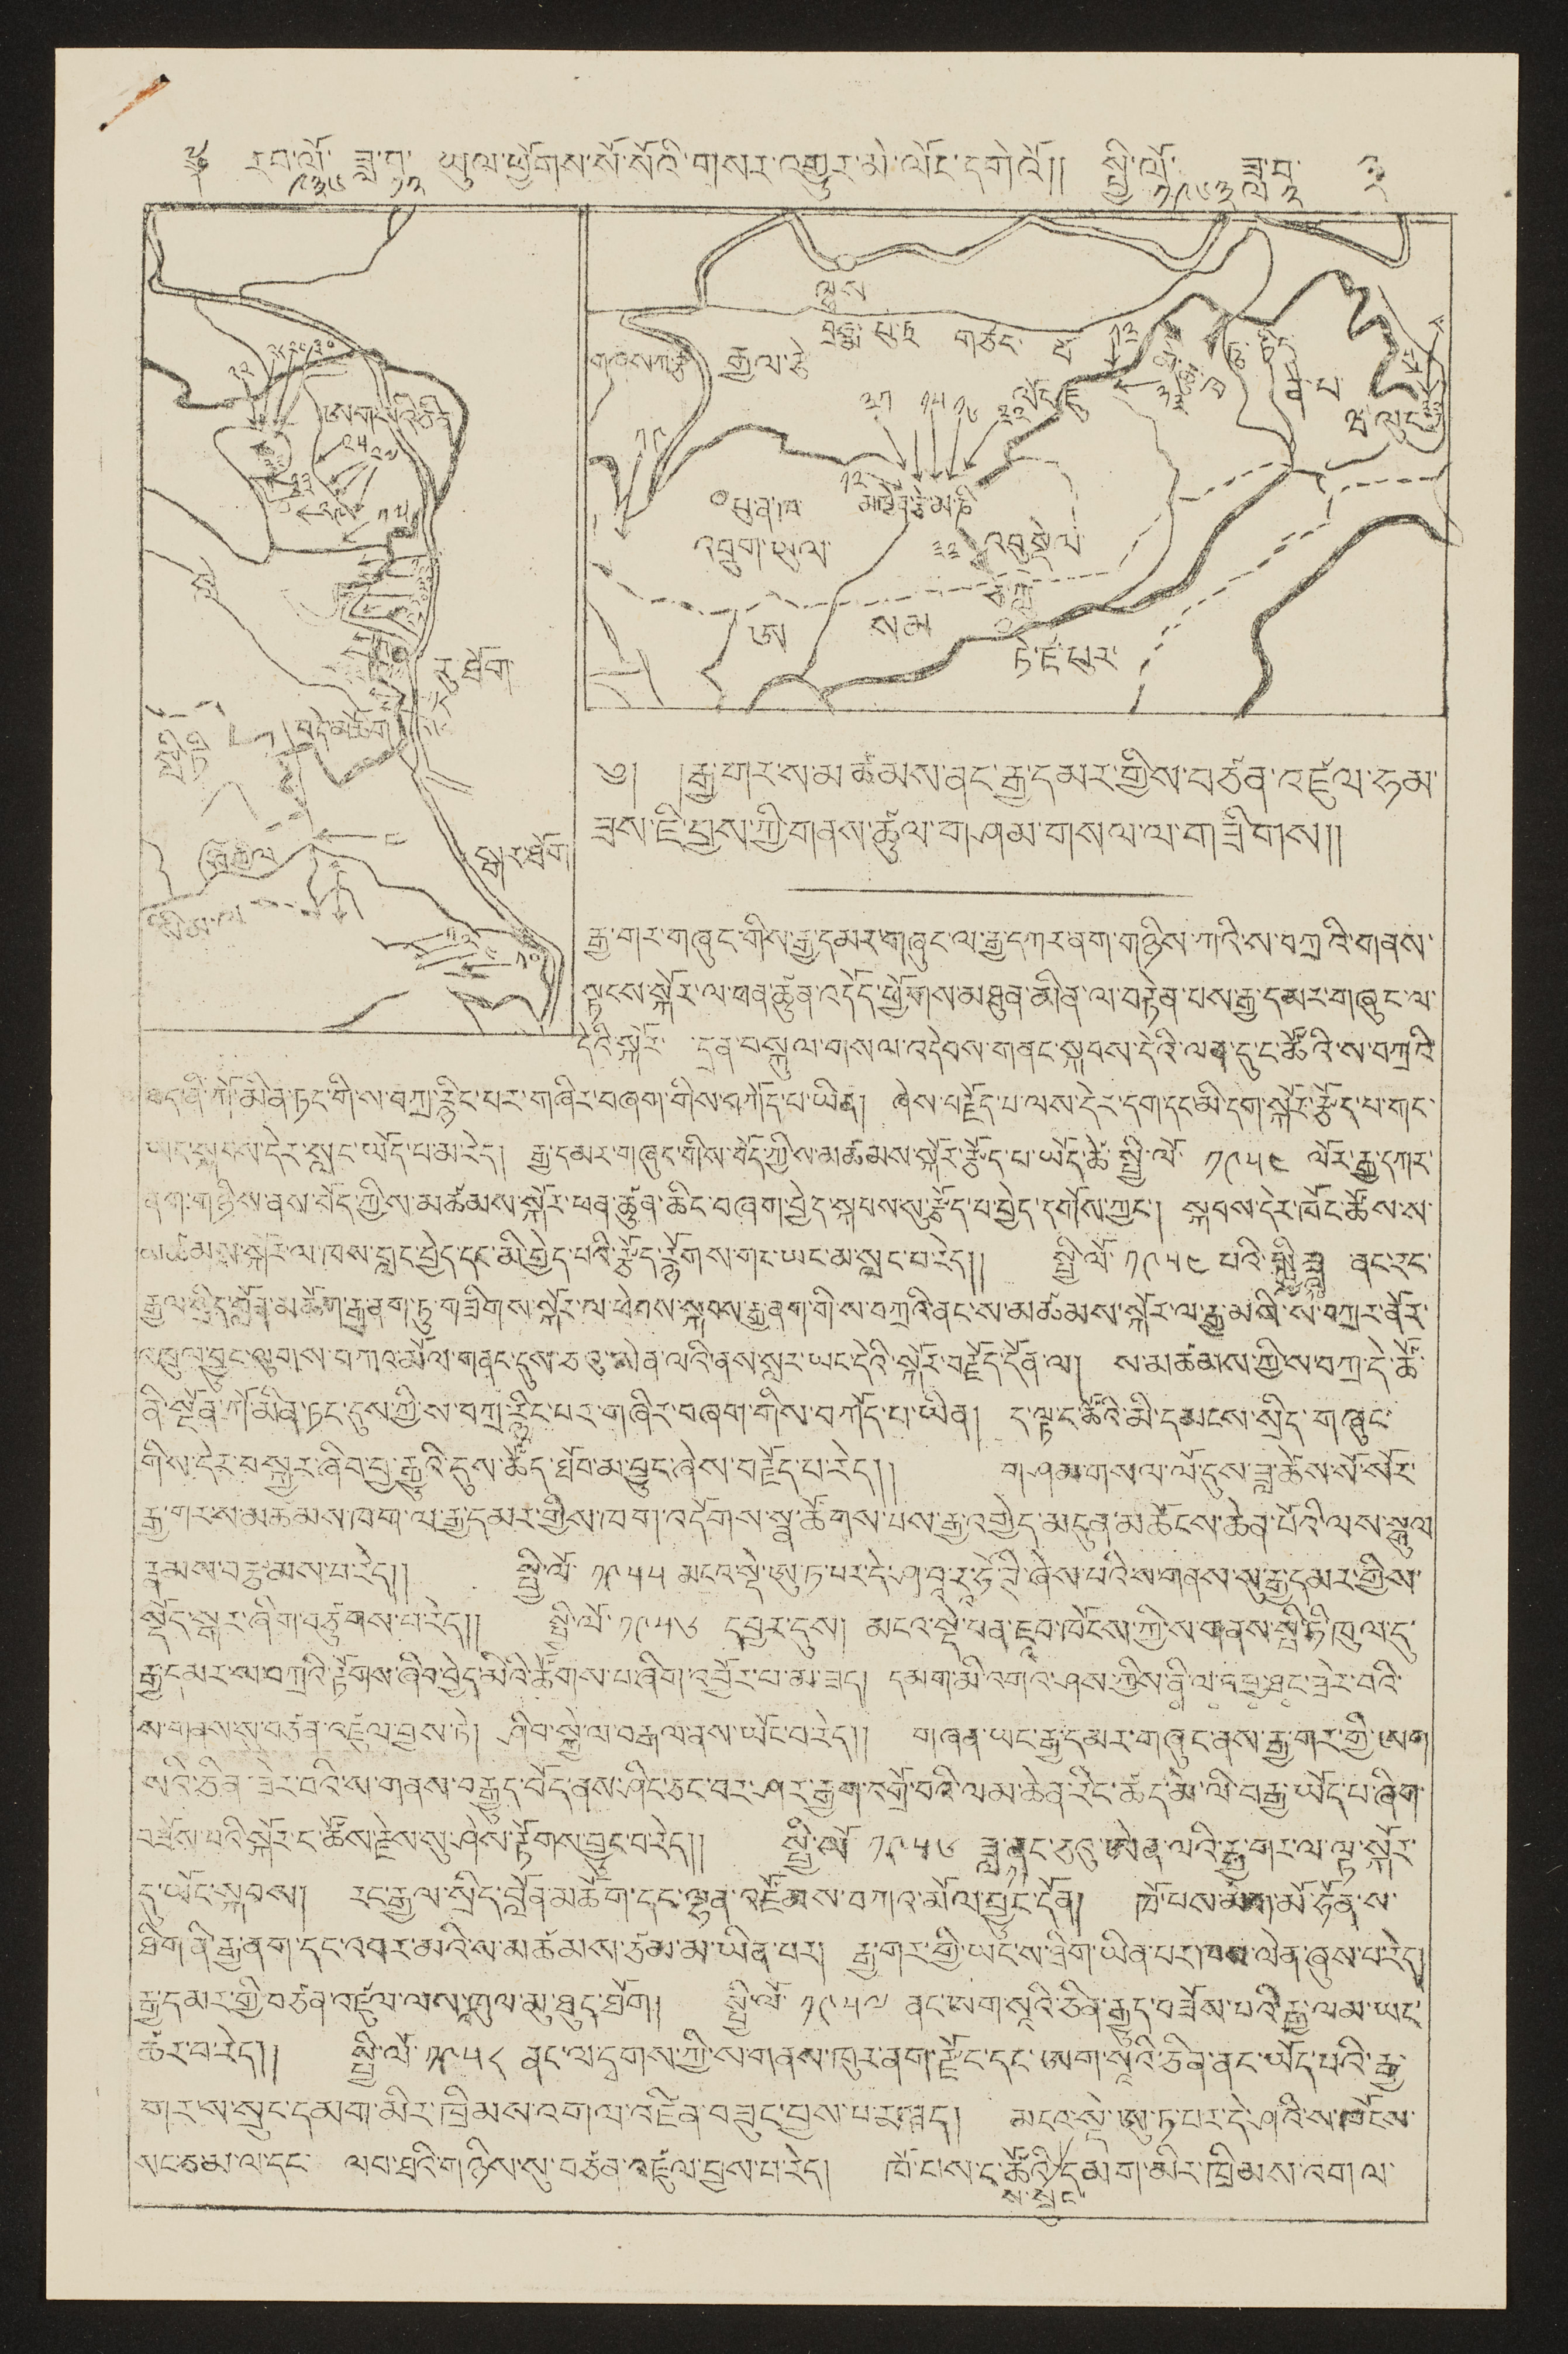༈ རབ་ལོ་
༩༣༦
ཟླ་བ་
༡༢
ཡུལ་ཕྱོགས་སོ་སོའི་གསར་འགྱུར་མེ་ལོང་དགེའོ།། སྤྱི་ལོ་
༡༩༦༣
ཟླ་བ་
༢
༣
༣༠
༢༠
༢༨
༢༢
ཨག་སའི་ཅིན་
༢༥
༢༧
༢༣
༣༣
༢༩
༡༥
༡
༣
སླེ
༣༠
༢༡
རུ་ཐོག་
༡༨
༢༦
བདེ་མཆོག་
སྤི་ཏི་
༤
སྒར་ཐོག་
ཤི་ཀྱིལ་
༢
སིམ་ལ་
༡
༢
༤
༡༠
ལྷ ས
༨
བྭཧྨ་པུ་ཏྲ གཙང་ པོ་
༡༢
ཏུ་ཏྲིར་
པུ་
མེ་ཆུ་ཁ་
གཞིས་ཀ་རྩེ་
རྒྱལ་རྩེ་
༢༣
ནཻ་པ་
ལོང་ཇུ་
༣༡
༡༥
༡༦
༣༣
༢༢
ཝ་ལུང་
༡༩
༡༢
པུ་ན་ཁ་
མཁྱེན་རྩེ་མ་ཎི་
འབྲུག་ཡུལ་
འབུ སྡེལ་
༣༣
ཅ་ཀླུ་
ཨ་ སམ་
ཏེ་ཛ་པུར་
༄། །རྒྱ་གར་ས་མཚམས་ནང་རྒྱ་དམར་གྱིས་བཙན་འཛུལ་ཧམ་
ཟས་ཇི་བྱས་ཀྱི་གནས་ཚུལ་གཤམ་གསལ་ལ་གཟིགས།།
རྒྱ་གར་གཞུང་གིས་རྒྱ་དམར་གཞུང་ལ་རྒྱ་དཀར་ནག་གཉིས་ཀའི་ས་བཀྲའི་གནས་
སྟངས་སྐོར་ལ་ཕན་ཚུན་འདོད་ཕྱོགས་མཐུན་མིན་ལ་བརྟེན་པས་རྒྱ་དམར་གཞུང་ལ་
དེའི་སྐོར་ ་དྲན་བསྐུལ་གསལ་འདེབས་གནང་སྐབས་དེའི་ལན་དུ་ང་ཚོའི་ས་བཀྲའི་
ཐད་ནི་ཀོ་མིན་ཏང་གི་ས་བཀྲ་རྙིང་པར་གཞིར་བཞག་གིས་བཀོད་པ་ཡིན། ཞེས་བརྗོད་པ་ལས་དེར་དག་དང་མི་དག་སྐོར་རྩོད་པ་གང་
ཡང་སྐབས་དེར་སླང་ཡོད་པ་མ་རེད། རྒྱ་དམར་གཞུང་གིས་བོད་ཀྱི་ས་མཚམས་སྐོར་རྩོད་པ་ཡོད་ཚེ་སྤྱི་ལོ་ ༡༩༥༤ ལོར་རྒྱ་དཀར་
ནག་གཉིས་ནས་བོད་ཀྱི་ས་མཚམས་སྐོར་ཕན་ཚུན་ཆིང་བཞག་བྱེད་སྐབས་སུ་རྩོད་པ་བྱེད་དགོས་ཀྱང་། སྐབས་དེར་ཁོང་ཚོས་ས་
མཚམས་སྐོར་ལ་ཁས་བླང་བྱེད་དང་མི་བྱེད་པའི་རྩོད་རྙོགས་གར་ཡང་མ་སླང་པ་རེད།། སྤྱི་ལོ་ ༡༩༥༤ པའི་སྤྱི་ཟླ་
༡༠
ནང་རང་
རྒྱལ་སྲིད་བློན་མཆོག་རྒྱ་ནག་ཏུ་གཟིགས་སྐོར་ལ་ཕེབས་སྐབས་རྒྱ་ནག་གི་ས་བཀྲའི་ནང་ས་མཚམས་སྐོར་ལ་རྒྱ་མསི་ས་བཀྲར་ནོར་
འཁྲུལ་བྱུང་ལུགས་བཀའ་མོལ་གནང་དུས་ཅའུ་ཨེན་ལའི་ནས་སླར་ཡང་དེའི་སྐོར་བརྗོད་དོན་ལ། ས་མཚམས་ཀྱིས་བཀྲ་དེ་ཚོ་
ནི་སྔོན་ཀོ་མིན་ཏང་དུས་ཀྱིས་བཀྲ་རྙིང་པར་གཞིར་བཞག་གིས་བཀོད་པ་ཡིན། ད་ལྟ་ང་ཚོའི་མི་དམངས་སྲིད་གཞུང་
གིས་དེར་བསྐྱར་ཞིབ་བྱ་རྒྱུའི་དུས་ཚོད་ཐོབ་མ་བྱུང་ཞེས་བརྗོད་པ་རེད།། གཤམ་གསལ་ལོ་དུས་ཟླ་ཚེས་སོ་སོར་
རྒྱ་གར་ས་མཚམས་ཁག་ལ་རྒྱ་དམར་གྱིས་ཁག་འདོགས་སྣ་ཚོགས་པས་རྒྱ་འགྱེད་མདུན་མཚོངས་ཆེན་པོའི་ལས་སྒུལ་
རྣམས་བརྩམས་པ་རེད།། སྤྱི་ལོ་ ༡༩༥༥ མངའ་སྡེ་ཨུ་ཏ་པར་དེ་ཤ་བཱ་རཱ་ཧོ་ཊི་ཞེས་པའི་ས་གནས་སུ་རྒྱ་དམར་གྱིས་
སྡོད་སྒར་ཞིག་བཙུགས་པ་རེད།། སྤྱི་ལོ་ ༡༩༥༦ དབྱར་དུས། དབྱར་དུས། མངའ་སྡེ་པན་ཇཱབ་ཁོངས་ཀྱི་ས་གནས་སྦི་ཏི་ཁུལ་དུ་
རྒྱ་དམར་ས་བཀྲའི་རྟོགས་ཞིབ་བྱེད་མིའི་ཚོགས་པ་ཞིག་འབྱོར་བ་མ་ཟད། དམག་མི་འགའ་ཤས་ཀྱིས་ནི་ལ་འབྱ་ཐང་ཟེར་བའི་
ས་གནས་སུ་བཙན་འཛུལ་བྱས་ཏེ། ཤིབ་སྐྱེ་ལ་བརྒལ་ནས་ཡོང་བ་རེད།། གཞན་ཡང་རྒྱ་དམར་གཞུང་ནས་རྒྱ་གར་གྱི་ཨག
སའི་ཅིན་ཟེར་བའི་ས་གནས་བརྒྱུད་བོད་ནས་ཤིང་ཅང་བར་ཤར་རྒྱག་འགྲོ་བའི་ལམ་ཆེན་རིང་ཚད་མེ་ལི་བརྒྱ་ཡོད་པ་ཞིག་
བཟོས་པའི་སྐོར་ང་ཚོས་རྗེས་སུ་ཤེས་རྟོགས་བྱུང་བ་རེད།། སྤྱི་ལོ་ ༡༩༤༦ ཟླ་
༡
ནང་ཅའི་ཨེན་ལའི་རྒྱ་གར་ལ་ལྟ་སྐོར་
དུ་ཡོང་སྐབས། རང་རྒྱལ་སྲིད་བློན་མཆོག་དང་ལྷན་འཛོམས་བཀའ་མོལ་བྱུང་དོན། ཁོ་པས་མེག་མོ་ཧོན་ས་
ཐིག་ནི་རྒྱ་ནག་དང་འབར་མའི་ས་མཚམས་ཙམ་མ་ཡིན་པར། རྒྱ་གར་གྱི་ཡངས་ཐིག་ཡིན་པར་ཁས་ལེན་ཞུས་པ་རེད།
རྒྱ་དམར་གྱི་བཙན་འཛུལ་ལས་འཁུལ་མུ་ཐུད་ཐོག། སྤྱི་ལོ་ ༡༩༥༧ ནང་ཨག་སཱའི་ཅིན་རྒྱུད་བཟོད་པའི་རྒྱ་ལམ་ཡང་
ཚར་བ་རེད།། སྤྱི་ལོ་ ༡༩༥༨ ནང་ལ་དྭགས་ཀྱི་ས་གནས་ཁུར་ནག་རྫོང་དང་ཨག་སཱའི་ཅིན་ནང་ཡོད་པའི་རྒྱ་
གར་ས་སྲུང་དམག་མིར་ཁྲིམས་འགལ་འཛིན་བཟུང་བྱས་པར་མ་ཟད། མངའ་སྡེ་ཨུ་ཏ་པར་དེ་ཤའི་ས་ཁོངས་
སང་ཅ་མ་ལ་དང་ ལབ་ཐའི་གཉིས་སུ་བཙན་འཛུལ་བྱས་པ་རེད། ཁོ་པས་ང་ཚོའི་
ས་སྲུང་
དམག་མིར་ཁྲིམས་འགལ་
